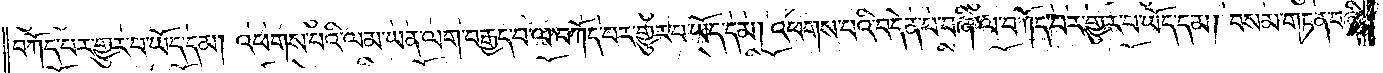བཀོད་པར་གྱུར་པ་ཡོད་དམ། འཕགས་པའི་ལམ་ཡན་ལག་བརྒྱད་པ་ལ་བཀོད་པར་གྱུར་པ་ཡོད་དམ། འཕགས་པའི་བདེན་པ་བཞི་ལ་བཀོད་པར་གྱུར་པ་ཡོད་དམ། བསམ་གཏན་བཞི་
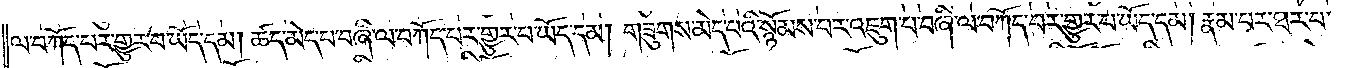ལ་བཀོད་པར་གྱུར་པ་ཡོད་དམ། ཚད་མེད་པ་བཞི་ལ་བཀོད་པར་གྱུར་པ་ཡོད་དམ། གཟུགས་མེད་པའི་སྙོམས་པར་འཇུག་པ་བཞི་ལ་བཀོད་པར་གྱུར་པ་ཡོད་དམ། རྣམ་པར་ཐར་པ་
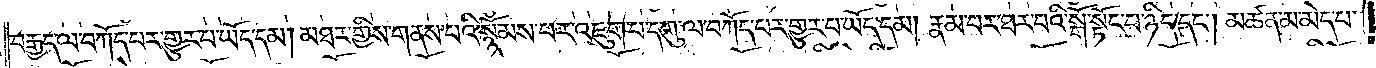བརྒྱད་ལ་བཀོད་པར་གྱུར་པ་ཡོད་དམ། མཐར་གྱིས་གནས་པའི་སྙོམས་པར་འཇུག་པ་དགུ་ལ་བཀོད་པར་གྱུར་པ་ཡོད་དམ། རྣམ་པར་ཐར་པའི་སྒོ་སྟོང་པ་ཉིད་དང༌། མཚན་མ་མེད་པ་
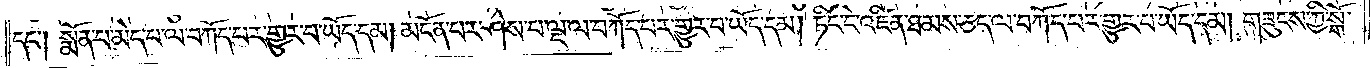དང༌། སྨོན་པ་མེད་པ་ལ་བཀོད་པར་གྱུར་པ་ཡོད་དམ། མངོན་པར་ཤེས་པ་ལྔ་ལ་བཀོད་པར་གྱུར་པ་ཡོད་དམ། ཏིང་ངེ་འཛིན་ཐམས་ཅད་ལ་བཀོད་པར་གྱུར་པ་ཡོད་དམ། གཟུངས་ཀྱི་སྒོ་
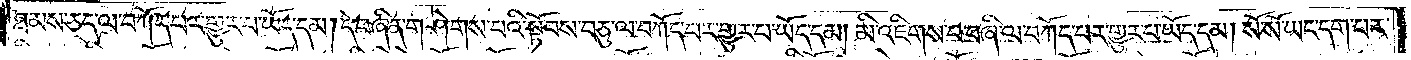ཐམས་ཅད་ལ་བཀོད་པར་གྱུར་པ་ཡོད་དམ། དེ་བཞིན་གཤེགས་པའི་སྟོབས་བཅུ་ལ་བཀོད་པར་གྱུར་པ་ཡོད་དམ། མི་འཇིགས་པ་བཞི་ལ་བཀོད་པར་གྱུར་པ་ཡོད་དམ། སོ་སོ་ཡང་དག་པར་
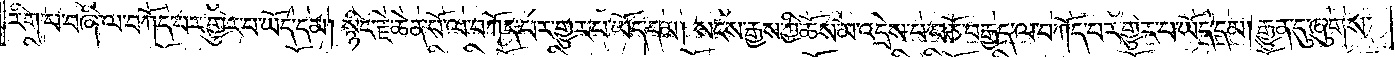རིག་པ་བཞི་ལ་བཀོད་པ་གྱུར་པ་ཡོད་དམ། སྙིང་རྗེ་ཆེན་པོ་ལ་བཀོད་པར་གྱུར་པ་ཡོད་དམ། སངས་རྒྱས་ཀྱི་ཆོས་མ་འདྲེས་པ་བཅོ་བརྒྱད་ལ་བཀོད་པར་གྱུར་པ་ཡོད་དམ། རྒྱུན་དུ་ཞུགས་
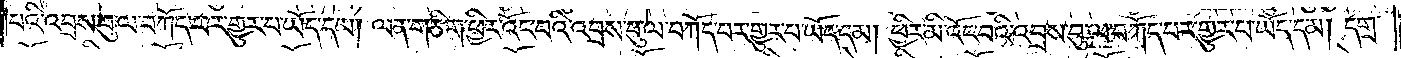པའི་འབྲས་བུ་ལ་བཀོད་པར་གྱུར་པ་ཡོད་དམ། ལན་ཅིག་ཕྱིར་འོང་བའི་འབྲས་བུ་ལ་བཀོད་པར་གྱུར་པ་ཡོད་དམ། ཕྱིར་མི་འོང་བའི་འབྲས་བུ་ལ་བཀོད་པར་གྱུར་པ་ཡོད་དམ། དགྲ་
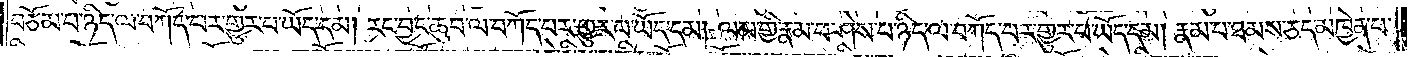བཅོམ་པ་ཉིད་ལ་བཀོད་པར་གྱུར་པ་ཡོད་དམ། རང་བྱང་ཆུབ་ལ་བཀོད་པར་གྱུར་པ་ཡོད་དམ། ལམ་གྱི་རྣམ་པ་ཤེས་པ་ཉིད་ལ་བཀོད་པར་གྱུར་པ་ཡོད་དམ། རྣམ་པ་ཐམས་ཅད་མཁྱེན་པ་
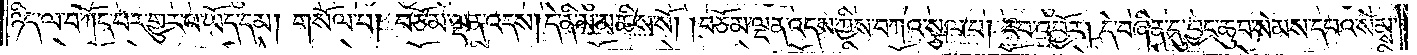ཉིད་ལ་བཀོད་པར་གྱུར་པ་ཡོད་དམ། གསོལ་བ། བཅོམ་ལྡན་འདས། དེ་ནི་མ་མཆིས་སོ། །བཅོམ་ལྡན་འདས་ཀྱིས་བཀའ་སྩལ་པ། རབ་འབྱོར། དེ་བཞིན་དུ་བྱང་ཆུབ་སེམས་དཔའ་སེམས་
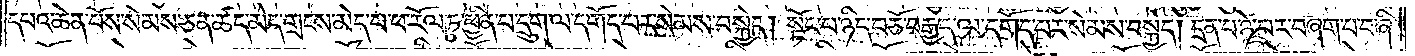དཔའ་ཆེན་པོས་སེམས་ཅན་ཚད་མེད་གྲངས་མེད་པ་ཕ་རོལ་ཏུ་ཕྱིན་པ་དྲུག་ལ་དགོད་པར་སེམས་བསྐྱེད། སྟོང་པ་ཉིད་བཅོ་བརྒྱད་ལ་དགོད་པར་སེམས་བསྐྱེད། དྲན་པ་ཉེ་བར་བཞག་པ་བཞི་
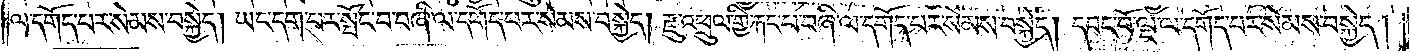ལ་དགོད་པར་སེམས་བསྐྱེད། ཡང་དག་པར་སྤོང་བ་བཞི་ལ་དགོད་པར་སེམས་བསྐྱེད། རྫུ་འཕྲུལ་གྱི་རྐང་པ་བཞི་ལ་དགོད་པར་སེམས་བསྐྱེད། དབང་པོ་ལྔ་ལ་དགོད་པར་སེམས་བསྐྱེད།
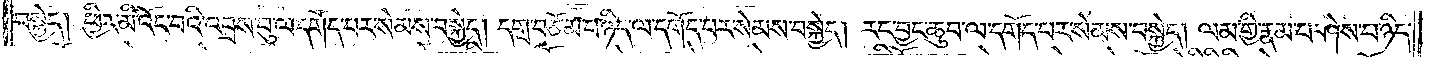བསྐྱེད། ཕྱིར་མི་འོང་བའི་འབྲས་བུ་ལ་དགོད་པར་སེམས་བསྐྱེད། དགྲ་བཅོམ་པ་ཉིད་ལ་དགོད་པར་སེམས་བསྐྱེད། རང་བྱང་ཆུབ་ལ་དགོད་པར་སེམས་བསྐྱེད། ལམ་གྱི་རྣམ་པ་ཤེས་པ་ཉིད་
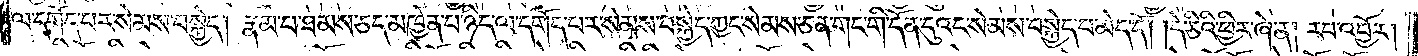ལ་དགོད་པར་སེམས་བསྐྱེད། རྣམ་པ་ཐམས་ཅད་མཁྱེན་པ་ཉིད་ལ་དགོད་པར་སེམས་བསྐྱེད་ཀྱང་སེམས་ཅན་གང་གི་དོན་དུའང་སེམས་བསྐྱེད་པ་མེད་དོ། །དེ་ཅིའི་ཕྱིར་ཞེ་ན། རབ་འབྱོར།
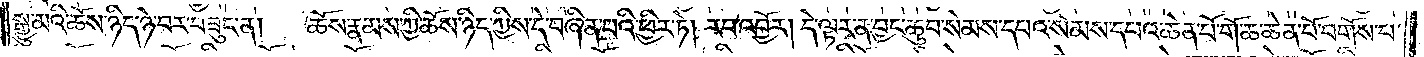སྒྱུ་མའི་ཆོས་ཉིད་ཉེ་བར་བཟུང་ན། ཆོས་རྣམས་ཀྱི་ཆོས་ཉིད་ཀྱིས་དེ་བཞིན་པའི་ཕྱིར་ཏེ། རབ་འབྱོར། དེ་ལྟར་ན་བྱང་ཆུབ་སེམས་དཔའ་སེམས་དཔའ་ཆེན་པོ་གོ་ཆ་ཆེན་པོ་བགོས་པ་
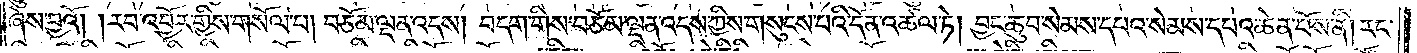ཞེས་བྱའོ། །རབ་འབྱོར་གྱིས་གསོལ་པ། བཅོམ་ལྡན་འདས། བདག་གིས་བཅོམ་ལྡན་འདས་ཀྱིས་གསུངས་པའི་དོན་འཚལ་ཏེ། བྱང་ཆུབ་སེམས་དཔའ་སེམས་དཔའ་ཆེན་པོས་ནི། རང་
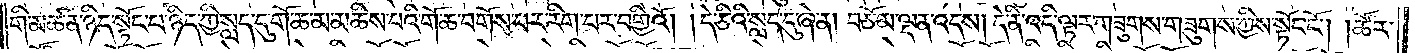གི་མཚན་ཉིད་སྟོང་པ་ཉིད་ཀྱི་སླད་དུ་གོ་ཆ་མ་མཆིས་པའི་གོ་ཆ་བགོས་པར་རིག་པར་བགྱིའོ། །དེ་ཅིའི་སླད་དུ་ཞེ་ན། བཅོམ་ལྡན་འདས། དེ་ནི་འདི་ལྟར་གཟུགས་གཟུགས་ཀྱིས་སྟོང་ངོ༌། །ཚོར་
